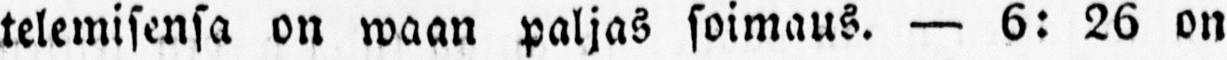telemisensa on waan paljas soimaus. — 6: 26 on
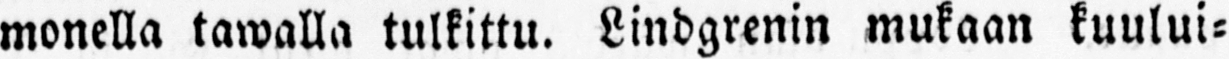monella tawalla tulkittu. Lindgrenin mukaan kuului-
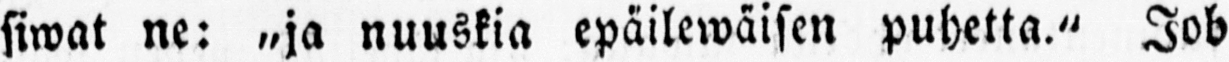siwat ne: „ja nuuskia epäilewäisen puhetta." Job
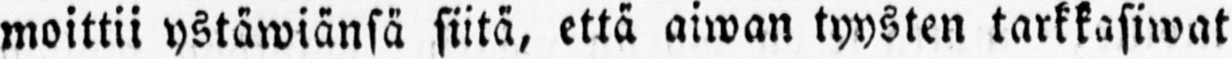moittii ystäwiänsä siitä, että aiwan tyysten tarkkasiwat
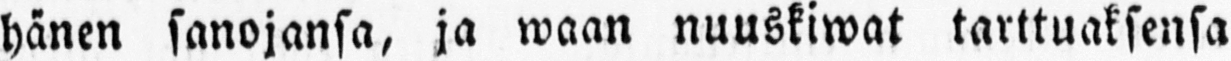hänen sanojansa, ja waan nuuskiwat tarttuaksensa
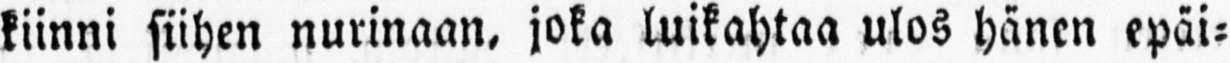kiinni siihen nurinaan, joka luikahtaa ulos hänen epäi-
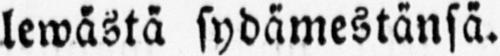lewästä sydämestänsä.
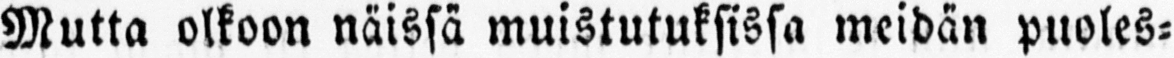Mutta olkoon näissä muistutuksissa meidän puoles-
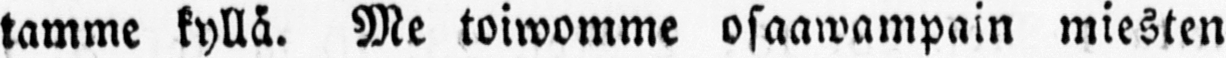tamme kyllä. Me toiwemme osaawampain miesten
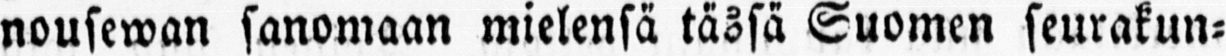nousewan sanomaan mielensä tässä Suomen seurakun-
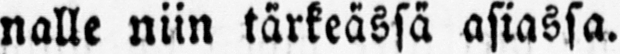nalle niin tärkeässä asiassa.
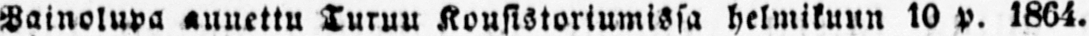Painolupa annettu Turun Konsistoriumissa helmikuun 10 p. 1864.
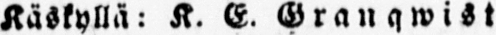Käskyllä: K. E. Granqwist.
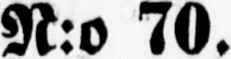N:o 70.
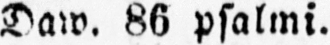Daw. 86 psalmi.
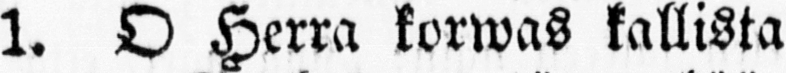1. O Herra korwas kallista
